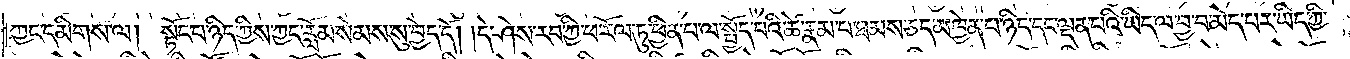ཀྱང་དམིགས་ལ། སྟོང་པ་ཉིད་ཀྱིས་ཀྱང་རློམ་སེམས་སུ་བྱེད་དོ། །དེ་ཤེས་རབ་ཀྱི་ཕ་རོལ་ཏུ་ཕྱིན་པ་ལ་སྤྱོད་པའི་ཚེ་རྣམ་པ་ཐམས་ཅད་མཁྱེན་པ་ཉིད་དང་ལྡན་པའི་ཡིད་ལ་བྱ་བ་མེད་པར་ཡིད་ཀྱི་
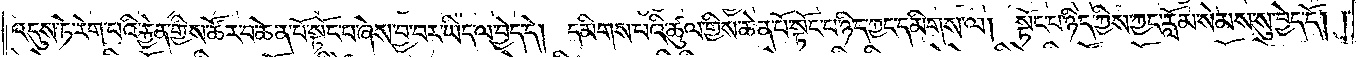འདུས་ཏེ་རེག་པའི་རྐྱེན་གྱིས་ཚོར་བ་ཆེན་པོ་སྟོང་པ་ཞེས་བྱ་བར་ཡིད་ལ་བྱེད་དེ། དམིགས་པའི་ཚུལ་གྱིས་ཆེན་པོ་སྟོང་པ་ཉིད་ཀྱང་དམིགས་ལ། སྟོང་པ་ཉིད་ཀྱིས་ཀྱང་རློམ་སེམས་སུ་བྱེད་དོ། །
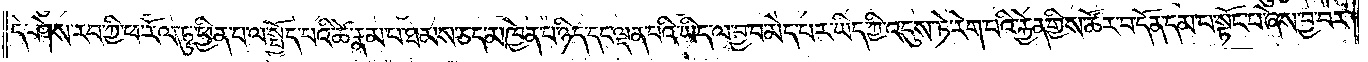དེ་ཤེས་རབ་ཀྱི་ཕ་རོལ་ཏུ་ཕྱིན་པ་ལ་སྤྱོད་པའི་ཚེ་རྣམ་པ་ཐམས་ཅད་མཁྱེན་པ་ཉིད་དང་ལྡན་པའི་ཡིད་ལ་བྱ་བ་མེད་པར་ཡིད་ཀྱི་འདུས་ཏེ་རེག་པའི་རྐྱེན་གྱིས་ཚོར་བ་དོན་དམ་པ་སྟོང་པ་ཞེས་བྱ་བར་
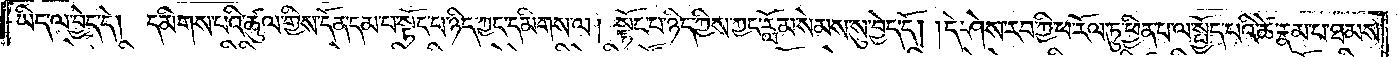ཡིད་ལ་བྱེད་དེ། དམིགས་པའི་ཚུལ་གྱིས་དོན་དམ་པ་སྟོང་པ་ཉིད་ཀྱང་དམིགས་ལ། སྟོང་པ་ཉིད་ཀྱིས་ཀྱང་རློམ་སེམས་སུ་བྱེད་དོ། །དེ་ཤེས་རབ་ཀྱི་ཕ་རོལ་ཏུ་ཕྱིན་པ་ལ་སྤྱོད་པའི་ཚེ་རྣམ་པ་ཐམས་
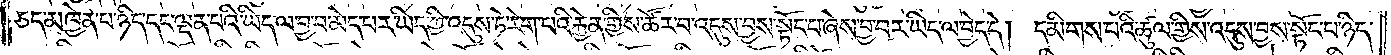ཅད་མཁྱེན་པ་ཉིད་དང་ལྡན་པའི་ཡིད་ལ་བྱ་བ་མེད་པར་ཡིད་ཀྱི་འདུས་ཏེ་རེག་པའི་རྐྱེན་གྱིས་ཚོར་བ་འདུས་བྱས་སྟོང་པ་ཞེས་བྱ་བར་ཡིད་ལ་བྱེད་དེ། དམིགས་པའི་ཚུལ་གྱིས་འདུས་བྱས་སྟོང་པ་ཉིད་
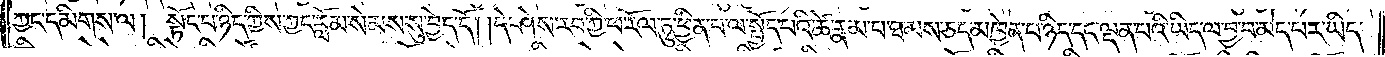ཀྱང་དམིགས་ལ། སྟོང་པ་ཉིད་ཀྱིས་ཀྱང་རློམ་སེམས་སུ་བྱེད་དོ། །དེ་ཤེས་རབ་ཀྱི་ཕ་རོལ་ཏུ་ཕྱིན་པ་ལ་སྤྱོད་པའི་ཚེ་རྣམ་པ་ཐམས་ཅད་མཁྱེན་པ་ཉིད་དང་ལྡན་པའི་ཡིད་ལ་བྱ་བ་མེད་པར་ཡིད་
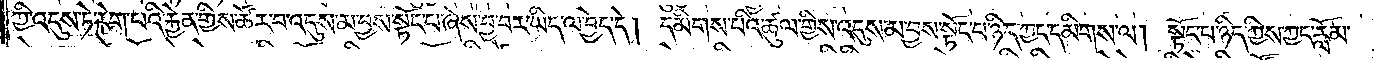ཀྱི་འདུས་ཏེ་རེག་པའི་རྐྱེན་གྱིས་ཚོར་བ་འདས་མ་བྱས་སྟོང་པ་ཞེས་བྱ་བར་ཡིད་ལ་བྱེད་དེ། དམིགས་པའི་ཚུལ་གྱིས་འདུས་མ་བྱས་སྟོང་པ་ཉིད་ཀྱང་དམིགས་ལ། སྟོང་པ་ཉིད་ཀྱིས་ཀྱང་རློམ་
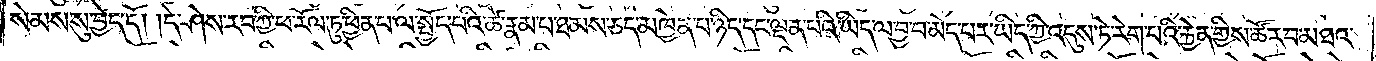སེམས་སུ་བྱེད་དོ། །དེ་ཤེས་རབ་ཀྱི་ཕ་རོལ་ཏུ་ཕྱིན་པ་ལ་སྤྱོད་པའི་ཚེ་རྣམ་པ་ཐམས་ཅད་མཁྱེན་པ་ཉིད་དང་ལྡན་པའི་ཡིད་ལ་བྱ་བ་མེད་པར་ཡིད་ཀྱི་འདུས་ཏེ་རེག་པའི་རྐྱེན་གྱིས་ཚོར་བ་མཐའ་
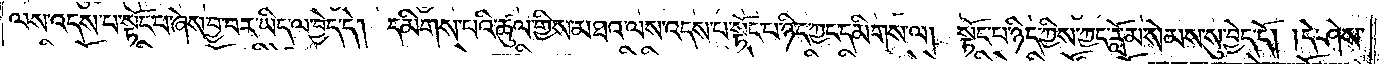ལས་འདས་པ་སྟོང་པ་ཞེས་བྱ་བར་ཡིད་ལ་བྱེད་དེ། དམིགས་པའི་ཚུལ་གྱིས་མཐའ་ལས་འདས་པ་སྟོང་པ་ཉིད་ཀྱང་དམིགས་ལ། སྟོང་པ་ཉིད་ཀྱིས་ཀྱང་རློམ་སེམས་སུ་བྱེད་དོ། །དེ་ཤེས་
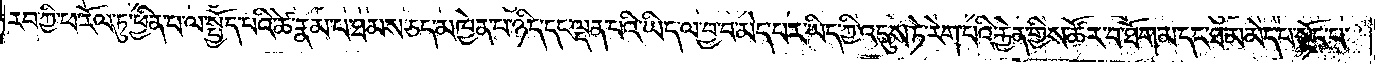རབ་ཀྱི་ཕ་རོལ་ཏུ་ཕྱིན་པ་ལ་སྤྱོད་པའི་ཚེ་རྣམ་པ་ཐམས་ཅད་མཁྱེན་པ་ཉིད་དང་ལྡན་པའི་ཡིད་ལ་བྱ་བ་མེད་པར་ཡིད་ཀྱི་འདུས་ཏེ་རེག་པའི་རྐྱེན་གྱིས་ཚོར་བ་ཐོག་མ་དང་ཐ་མ་མེད་པ་སྟོང་པ་
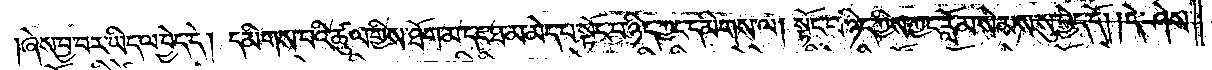ཞེས་བྱ་བར་ཡིད་ལ་བྱེད་དེ། དམིགས་པའི་ཚུལ་གྱིས་ཐོག་མ་དང་ཐ་མ་མེད་པ་སྟོང་པ་ཉིད་ཀྱང་དམིགས་ལ། སྟོང་པ་ཉིད་ཀྱིས་ཀྱང་རློམ་སེམས་སུ་བྱེད་དོ། །དེ་ཤེས་
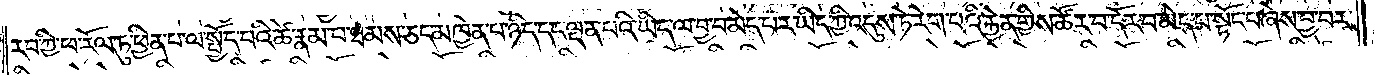རབ་ཀྱི་ཕ་རོལ་ཏུ་ཕྱིན་པ་ལ་སྤྱོད་པའི་ཚེ་རྣམ་པ་ཐམས་ཅད་མཁྱེན་པ་ཉིད་དང་ལྡན་པའི་ཡིད་ལ་བྱ་བ་མེད་པར་ཡིད་ཀྱི་འདུས་ཏེ་རེག་པའི་རྐྱེན་གྱིས་ཚོར་བ་དོར་བ་མེད་པ་སྟོང་པ་ཞེས་བྱ་བར་
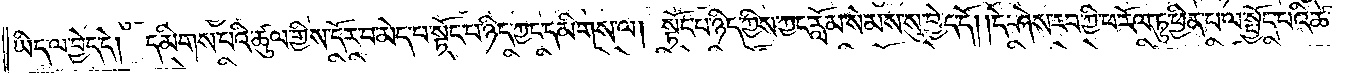ཡིད་ལ་བྱེད་དེ། དམིགས་པའི་ཚུལ་གྱིས་དོར་བ་མེད་པ་སྟོང་པ་ཉིད་ཀྱང་དམིགས་ལ། སྟོང་པ་ཉིད་ཀྱིས་ཀྱང་རློམ་སེམས་སུ་བྱེད་དོ། །དེ་ཤེས་རབ་ཀྱི་ཕ་རོལ་ཏུ་ཕྱིན་པ་ལ་སྤྱོད་པའི་ཚེ་
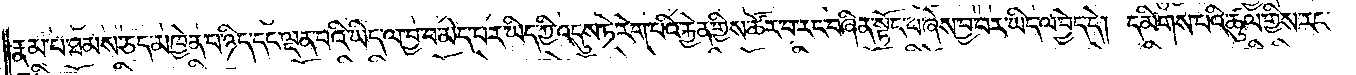རྣམ་པ་ཐམས་ཅད་མཁྱེན་པ་ཉིད་དང་ལྡན་པའི་ཡིད་ལ་བྱ་བ་མེད་པར་ཡིད་ཀྱི་འདུས་ཏེ་རེག་པའི་རྐྱེན་གྱིས་ཚོར་བ་རང་བཞིན་སྟོང་པ་ཞེས་བྱ་བར་ཡིད་ལ་བྱེད་དེ། དམིགས་པའི་ཚུལ་གྱིས་རང་
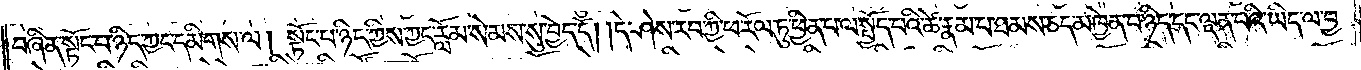བཞིན་སྟོང་པ་ཉིད་ཀྱང་དམིགས་ལ། སྟོང་པ་ཉིད་ཀྱིས་ཀྱང་རློམ་སེམས་སུ་བྱེད་དོ། །དེ་ཤེས་རབ་ཀྱི་ཕ་རོལ་ཏུ་ཕྱིན་པ་ལ་སྤྱོད་པའི་ཚེ་རྣམ་པ་ཐམས་ཅད་མཁྱེན་པ་ཉིད་དང་ལྡན་པའི་ཡིད་ལ་བྱ་
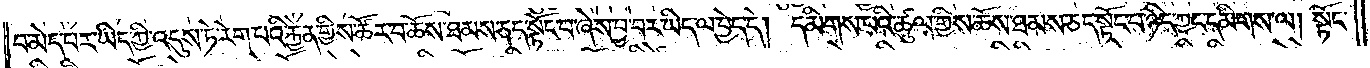བ་མེད་པར་ཡིད་ཀྱི་འདུས་ཏེ་རེག་པའི་རྐྱེན་གྱིས་ཚོར་བ་ཆོས་ཐམས་ཅད་སྟོང་པ་ཞེས་བྱ་བར་ཡིད་ལ་བྱེད་དེ། དམིགས་པའི་ཚུལ་གྱིས་ཆོས་ཐམས་ཅད་སྟོང་པ་ཉིད་ཀྱང་དམིགས་ལ། སྟོང་
